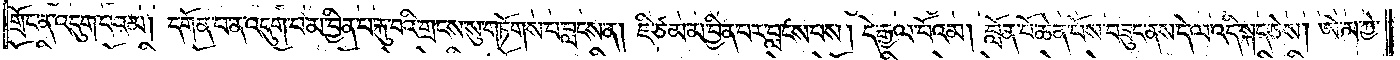གྲོང་ན་འདུག་པའམ། དགོན་པ་ན་འདུག་པ་མ་བྱིན་པ་རྐུ་བའི་གྲངས་སུ་གཏོགས་པ་བླངས་ན། ཇི་ཙམ་མ་བྱིན་པར་བླངས་པས། དེ་རྒྱལ་པོའམ། བློན་པོ་ཆེན་པོས་བཟུང་ནས་དེ་ལ་འདི་སྐད་ཅེས། ཨེ་མ་ཀྱེ་
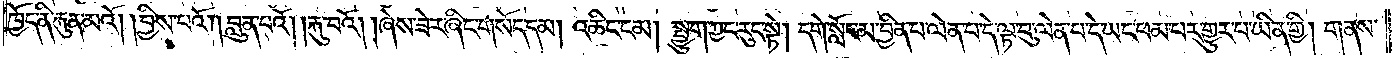ཁྱོད་ནི་རྐུན་མའོ། །བྱིས་པའོ། །བླུན་པའོ། །རྐུ་བའོ། །ཞེས་ཟེར་ཞིང་གསོད་དམ། འཆིང་ངམ། སྤྱུག་ཀྱང་རུང་སྟེ། དགེ་སློང་མ་བྱིན་པ་ལེན་པ་དེ་ལྟ་བུ་ལེན་པ་དེ་ཡང་ཕམ་པར་གྱུར་བ་ཡིན་གྱི། གནས་
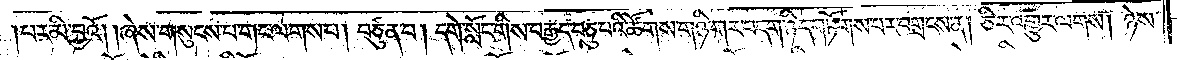།པར་མི་བྱའོ། །ཞེས་གསུངས་པ་གང་ལགས་པ། བཙུན་པ། དགེ་སློང་གིས་བརྒྱད་བཅུ་པའི་ཚོགས་གཉི་གར་བདག་ཉིད་གཏོགས་པར་བགྲངས་ན། ཅིར་འགྱུར་ལགས། ཉེས་
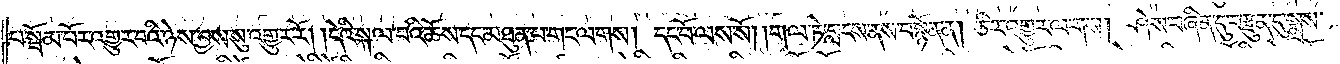པ་སྦོམ་པོར་འགྱུར་བའི་ཉེས་བྱས་སུ་འགྱུར་རོ། །དེའི་སྐལ་པའི་ཆོས་དང་མཐུན་པ་གང་ལགས། དང་པོ་ལས་སོ། །གལ་ཏེ་བླངས་ནས་བསྙོན་ན། ཅིར་འགྱུར་ལགས། ཤེས་བཞིན་དུ་བརྫུན་དུ་སྨྲས་
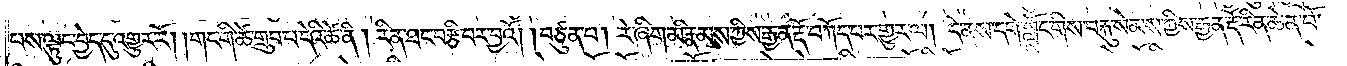པས་ལྟུང་བྱེད་དུ་འགྱུར་རོ། །གང་གི་ཚེ་གྲུབ་པ་དེའི་ཚེ་ནི། རིན་ཐང་བརྩི་བར་བྱའོ། །བཙུན་པ། རེ་ཞིག་མི་རྣམས་ཀྱིས་རྒྱན་རྡོ་བཀོད་པར་གྱུར་ལ། དེ་ནས་དགེ་སློང་གིས་བརྐུ་སེམས་ཀྱིས་རྒྱན་རྡོ་རིན་ཆེན་པོ་
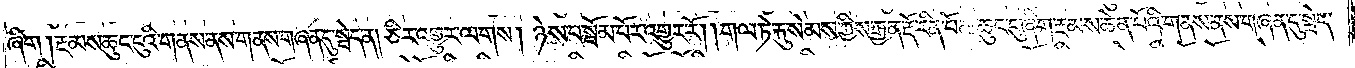ཞིག །རྔམས་ཆུང་ངུའི་གནས་ནས་གནས་གཞན་དུ་སྦེད་ན། ཅིར་འགྱུར་ལགས། ཉེས་པ་སྦོམ་པོར་འགྱུར་རོ། །གལ་ཏེ་རྐུ་སེམས་ཀྱིས་རྒྱན་རྡོ་རིན་པོ་ཆེ་ཆུང་ངུ་ཞིག་རྔམས་ཆེན་པོའི་གནས་ནས་གཞན་དུ་སྦེད་
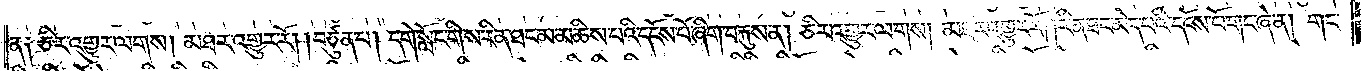ན༑ ཅིར་འགྱུར་ལགས། མཐར་འགྱུར་རོ། །བཙུན་པ། དགེ་སློང་གིས་རིན་ཐང་མ་མཆིས་པའི་དངོས་པོ་ཞིག་བརྐུས་ན། ཅིར་འགྱུར་ལགས། མཐར་འགྱུར་རོ། །རིན་ཐང་མེད་པའི་དངོས་པོ་གང་ཞེ་ན། གང་
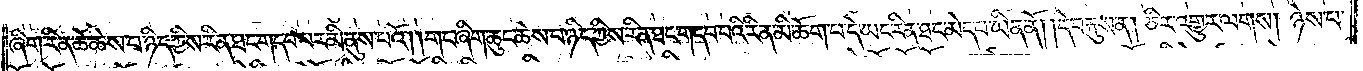ཞིག་རིན་ཆེ་ཆེས་པ་ཉིད་ཀྱིས་རིན་ཐང་གདབ་པར་མི་ནུས་པའོ། །གང་ཞིག་ཆུང་ཆེས་བ་ཉིད་ཀྱིས་རིན་ཐང་གདབ་པའི་རིན་མི་ཆོག་པ་དེ་ཡང་རིན་ཐང་མེད་པ་ཡིན་ནོ། །དེ་བརྐུས་ན། ཅིར་འགྱུར་ལགས། ཉེས་པ་
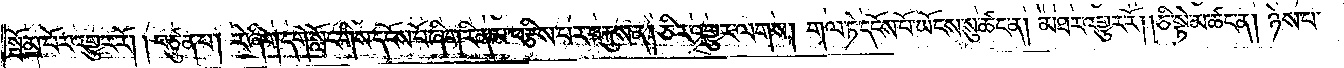སྦོམ་པོར་འགྱུར་རོ། །བཙུན་པ། རེ་ཞིག་དགེ་སློང་གིས་དངོས་པོ་ཞིག་རིན་མ་བརྩིས་པར་བརྐུས་ན། ཅིར་འགྱུར་ལགས། གལ་ཏེ་དངོས་པོ་ཡོངས་སུ་ཚང་ན། མཐར་འགྱུར་རོ། །ཅི་སྟེ་མ་ཚང་ན། ཉེས་པ་
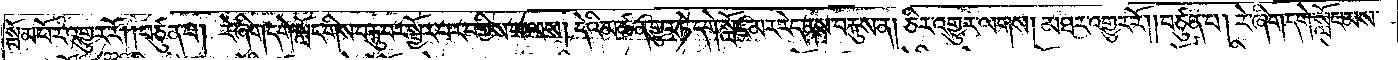སྦོམ་པོར་འགྱུར་རོ། །བཙུན་པ། རེ་ཞིག་དགེ་སློང་གིས་བརྐུ་བར་སྦྱོར་བར་བགྱིས་པ་ལས། དེའི་མཚན་གྱུར་ཏེ་དགེ་སློང་མར་རེད་ནས་བརྐུས་ན། ཅིར་འགྱུར་ལགས། མཐར་འགྱུར་རོ། །བཙུན་པ། རེ་ཞིག་དགེ་སློང་མས་
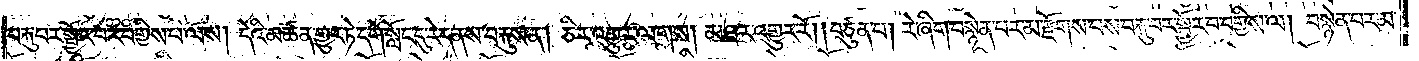བརྐུ་བར་སྦྱོར་བར་བགྱིས་པ་ལས། དེའི་མཚན་གྱུར་ཏེ་དགེ་སློང་དུ་རེད་ནས་བརྐུས་ན། ཅིར་འགྱུར་ལགས། མཐར་འགྱུར་རོ། །བཙུན་པ། རེ་ཞིག་བསྙེན་པར་མ་རྫོགས་པས་བརྐུ་བར་སྦྱོར་བ་བགྱིས་ལ། བསྙེན་པར་མ་
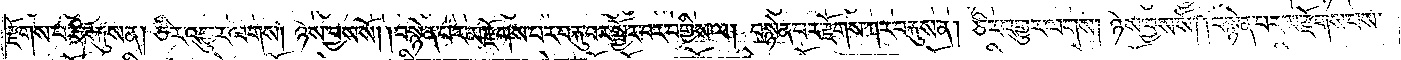རྫོགས་པར་བརྐུས་ན། ཅིར་འགྱུར་ལགས། ཉེས་བྱས་སོ། །བསྙེན་པར་མ་རྫོགས་པར་བརྐུ་བར་སྦྱོར་བར་བགྱིས་ལ། བསྙེན་པར་རྫོགས་ཀར་བརྐུས་ན། ཅིར་འགྱུར་ལགས། ཉེས་བྱས་སོ། །བསྙེན་པར་མ་རྫོགས་པས་
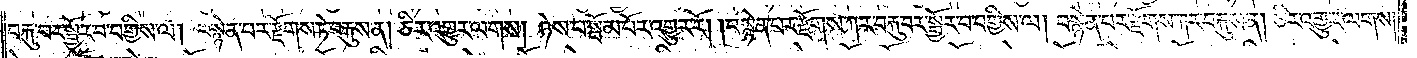བརྐུ་བར་སྦྱོར་བ་བགྱིས་ལ། བསྙེན་པར་རྫོགས་ཏེ་བརྐུས་ན། ཅིར་འགྱུར་ལགས། ཉེས་པ་སྦོམ་པོར་འགྱུར་རོ། །བསྙེན་པར་རྫོགས་ཀར་བརྐུ་བར་སྦྱོར་བ་བགྱིས་ལ། བསྙེན་པར་རྫོགས་ཀར་བརྐུས་ན། ཅིར་འགྱུར་ལགས།
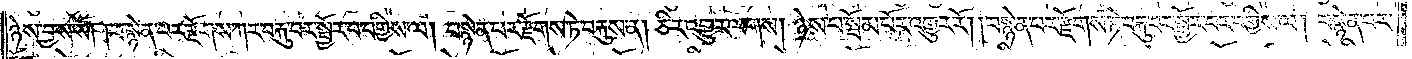ཉེས་བྱས་སོ། །བསྙེན་པར་རྫོགས་ཀར་བརྐུ་བར་སྦྱོར་བ་བགྱིས་ལ། བསྙེན་པར་རྫོགས་ཏེ་བརྐུས་ན། ཅིར་འགྱུར་ལགས། ཉེས་པ་སྦོམ་པོར་འགྱུར་རོ། །བསྙེན་པར་རྫོགས་ཏེ་བརྐུ་བར་སྦྱོར་བར་བགྱིས་ལ། བསྙེན་པར་
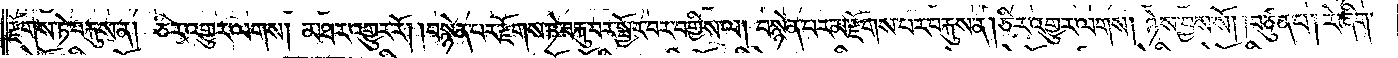རྫོགས་ཏེ་བརྐུས་ན། ཅིར་འགྱུར་ལགས། མཐར་འགྱུར་རོ། །བསྙེན་པར་རྫོགས་ཏེ་བརྐུ་བར་སྦྱོར་བར་བགྱིས་ལ། བསྙེན་པར་མ་རྫོགས་པར་བརྐུས་ན། ཅིར་འགྱུར་ལགས། ཉེས་བྱས་སོ། །བཙུན་པ། རེ་ཞིག་
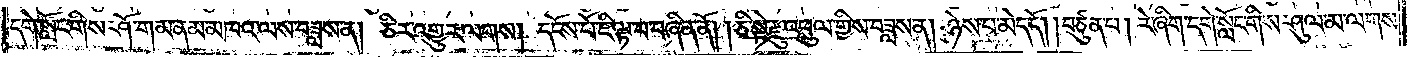དགེ་སློང་གིས་ཤོ་གམ་ནམ་མཁའ་ལས་བཟླས་ན། ཅིར་འགྱུར་ལགས། དངོས་པོ་ཇི་ལྟ་བ་བཞིན་ནོ། །ཅི་སྟེ་རྫུ་འཕྲུལ་གྱིས་བཟླས་ན། ཉེས་པ་མེད་དོ། །བཙུན་པ། རེ་ཞིག་དགེ་སློང་གིས་ཤུལ་མ་ལགས་
